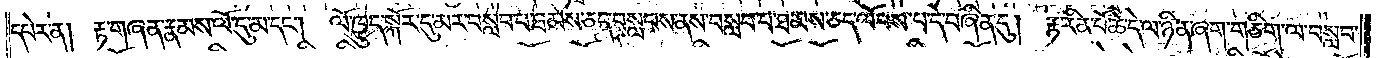དཔེར་ན། རྟ་གཞན་རྣམས་ལོ་དུ་མ་དང༌། ལོ་ཁྱུད་སྐོར་དུ་མར་བསླབ་པ་ཐམས་ཅད་བསླབས་ནས་བསླབ་པ་ཐམས་ཅད་ལོབས་པ་དེ་བཞིན་དུ། རྟ་རིན་པོ་ཆེ་དེ་ལ་ཉིན་ཞག་གཅིག་ལ་བསླབ་
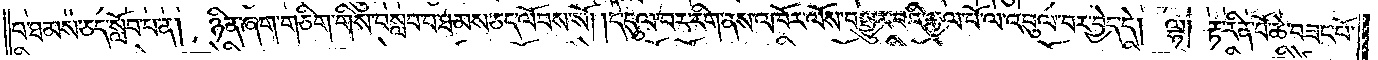པ་ཐམས་ཅད་སློབ་པ་ན། ཉིན་ཞག་གཅིག་གིས་བསླབ་པ་ཐམས་ཅད་ལོབས་སོ། །དེ་དུལ་བར་རིག་ནས་འཁོར་ལོས་བསྒྱུར་བའི་རྒྱལ་པོ་ལ་འབུལ་བར་བྱེད་དེ། ལྷ། རྟ་རིན་པོ་ཆེ་བཟང་པོ་
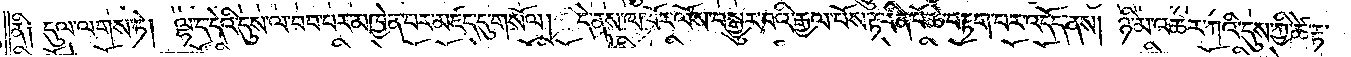ནི། དུལ་ལགས་ཏེ། ལྷ་ད་དེའི་དུས་ལ་བབ་པར་མཁྱེན་པར་མཛད་དུ་གསོལ། དེ་ནས་འཁོར་ལོས་བསྒྱུར་བའི་རྒྱལ་པོས་རྟ་རིན་པོ་ཆེ་བརྟག་པར་འདོད་ནས། ཉི་མ་འཆར་ཀའི་དུས་ཀྱི་ཚེ་རྟ་
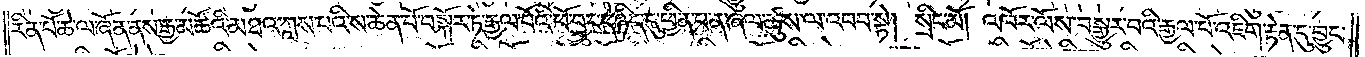རིན་པོ་ཆེ་ལ་ཞོན་ནས་རྒྱ་མཚོའི་མཐའ་ཀླས་པའི་ས་ཆེན་པོ་བསྐོར་ཏེ་རྒྱལ་པོའི་ཕོ་བྲང་དེ་ཉིད་དུ་ཕྱིན་པ་ན་ཞལ་ཚུས་ལ་འབབ་སྟེ། སྲིང་མོ། འཁོར་ལོས་བསྒྱུར་བའི་རྒྱལ་པོ་འཇིག་རྟེན་དུ་བྱུང་
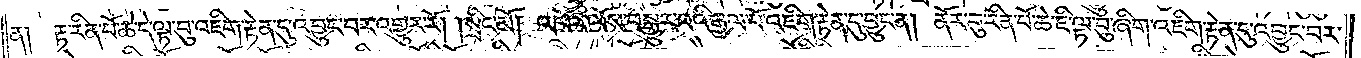ན། རྟ་རིན་པོ་ཆེ་དེ་ལྟ་བུ་འཇིག་རྟེན་དུ་འབྱུང་བར་འགྱུར་རོ། །སྲིང་མོ། འཁོར་ལོས་བསྒྱུར་བའི་རྒྱལ་པོ་འཇིག་རྟེན་དུ་བྱུང་ན། ནོར་བུ་རིན་པོ་ཆེ་ཇི་ལྟ་བུ་ཞིག་འཇིག་རྟེན་དུ་འབྱུང་བར་
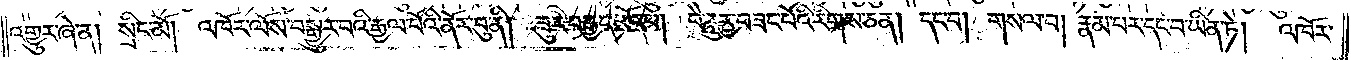འགྱུར་ཞེ་ན། སྲིང་མོ། འཁོར་ལོས་བསྒྱུར་བའི་རྒྱལ་པོའི་ནོར་བུ་ནི། ཟུར་བརྒྱད་ཡོད་པ། བཻ་ཌཱུརྱ་བཟང་པོའི་རིགས་ཅན། དང་བ། གསལ་བ། རྣམ་པར་དང་བ་ཡིན་ཏེ། འཁོར་
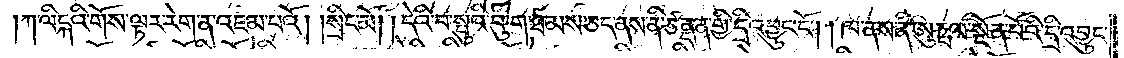ཀ་ལིངྐའི་གོས་ལྟར་རེག་ན་འཇམ་པའོ། །སྲིང་མོ། །དེའི་བ་སྤུའི་བུ་ག་ཐམས་ཅད་ནས་ནི་ཙནྡན་གྱི་དྲི་འབྱུང་ངོ༌། །ཁ་ནས་ནི་ཨུཏྤལ་སྔོན་པོའི་དྲི་འབྱུང་
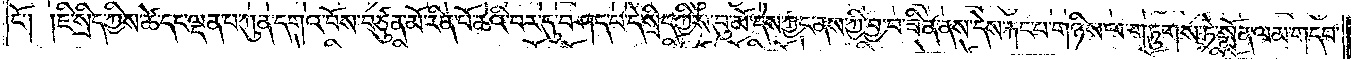ངོ༌། །ཇི་སྲིད་ཀྱིས་ཚེ་དང་ལྡན་པ་ཀུན་དགའ་བོས་བཙུན་མོ་རིན་པོ་ཆེའི་བར་དུ་བཤད་པ་དེ་སྲིད་ཀྱིས་བུ་མོ་དེས་ཀྱང་ནས་ཀྱི་བྱ་བ་ཟིན་ནས་དེས་རྐང་པ་གཉིས་ལ་གཏུགས་ཏེ་སྨོན་ལམ་གདབ་
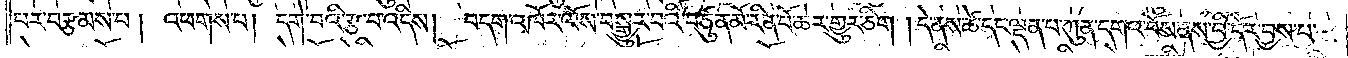པར་བརྩམས་པ། འཕགས་པ། དགེ་བའི་རྩ་བ་འདིས། བདག་འཁོར་ལོས་བསྒྱུར་བའི་བཙུན་མོ་རིན་པོ་ཆེར་གྱུར་ཅིག །དེ་ནས་ཚེ་དང་ལྡན་པ་ཀུན་དགའ་བོས་ནས་བྱི་དོར་བྱས་པ་
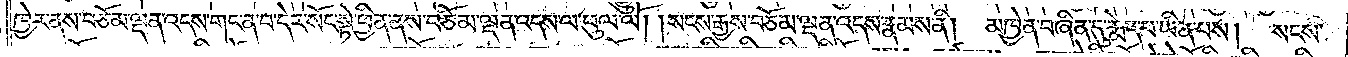ཁྱེར་ནས་བཅོམ་ལྡན་འདས་གང་ན་བ་དེར་སོང་སྟེ་ཕྱིན་ནས་བཅོམ་ལྡན་འདས་ལ་ཕུལ་ལོ། །སངས་རྒྱས་བཅོམ་ལྡན་འདས་རྣམས་ནི། མཁྱེན་བཞིན་དུ་རྨེད་པ་ཡིན་པས། སངས་
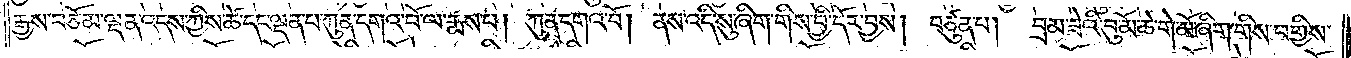རྒྱས་བཅོམ་ལྡན་འདས་ཀྱིས་ཚེ་དང་ལྡན་པ་ཀུན་དགའ་བོ་ལ་རྨས་པ། ཀུན་དགའ་བོ། ནས་འདི་སུ་ཞིག་གིས་བྱི་དོར་བྱས། བཙུན་པ། བྲམ་ཟེའི་བུ་མོ་ཆེ་གེ་མོ་ཞིག་གིས་བགྱིས་
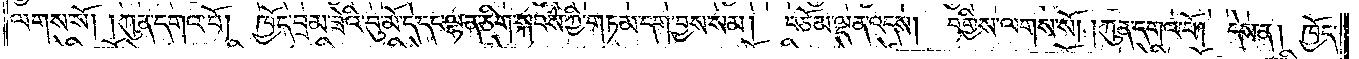ལགས་སོ། །ཀུན་དགའ་བོ། ཁྱོད་བྲམ་ཟེའི་བུ་མོ་དེ་དང་ལྷན་ཅིག་སྐབས་ཀྱི་གཏམ་དག་བྱས་སམ། བཅོམ་ལྡན་འདས། བགྱིས་ལགས་སོ། །ཀུན་དགའ་བོ། དེས་ན། ཁྱོད་
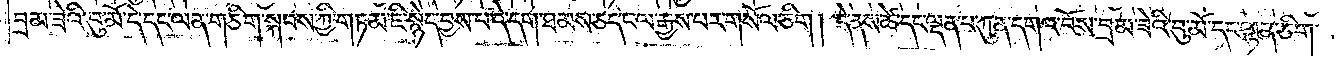བྲམ་ཟེའི་བུ་མོ་དེ་དང་ལན་གཅིག་སྐབས་ཀྱི་གཏམ་ཇི་སྙེད་བྱས་པ་དེ་དག་ཐམས་ཅད་ང་ལ་རྒྱས་པར་གསོལ་ཅིག། དེ་ནས་ཚེ་དང་ལྡན་པ་ཀུན་དགའ་བོས་བྲམ་ཟེའི་བུ་མོ་དང་ལྷན་ཅིག་
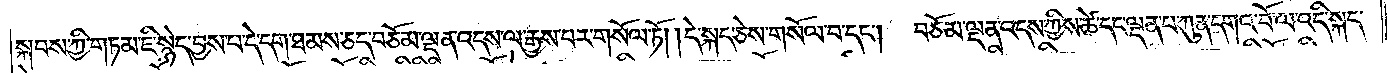སྐབས་ཀྱི་གཏམ་ཇི་སྙེད་བྱས་པ་དེ་དག་ཐམས་ཅད་བཅོམ་ལྡན་འདས་ལ་རྒྱས་པར་གསོལ་ཏོ། །དེ་སྐད་ཅེས་གསོལ་པ་དང༌། བཅོམ་ལྡན་འདས་ཀྱིས་ཚེ་དང་ལྡན་པ་ཀུན་དགའ་བོ་ལ་འདི་སྐད་
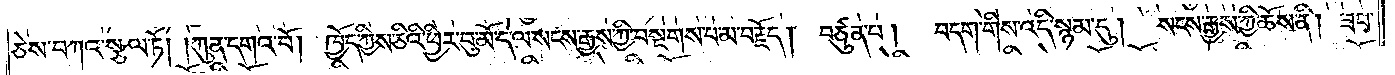ཅེས་བཀའ་སྩལ་ཏོ། །ཀུན་དགའ་བོ། ཁྱོད་ཀྱིས་ཅིའི་ཕྱིར་བུ་མོ་དེ་ལ་སངས་རྒྱས་ཀྱི་བསྔགས་པ་མ་བརྗོད། བཙུན་པ། བདག་གིས་འདི་སྙམ་དུ། སངས་རྒྱས་ཀྱི་ཆོས་ནི། ཟབ་
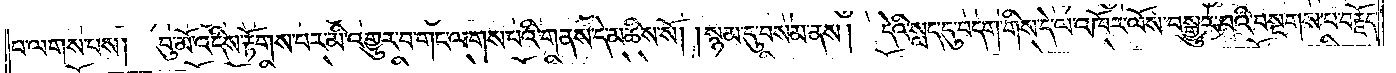པ་ལགས་པས། བུ་མོ་འདིས་རྟོགས་པར་མི་འགྱུར་བ་གང་ལགས་པའི་གནས་དེ་མཆིས་སོ། །སྙམ་དུ་བསམ་ནས། དེའི་སླད་དུ་བདག་གིས་དེ་ལ་འཁོར་ལོས་བསྒྱུར་བའི་བསྔགས་པ་བརྗོད་
